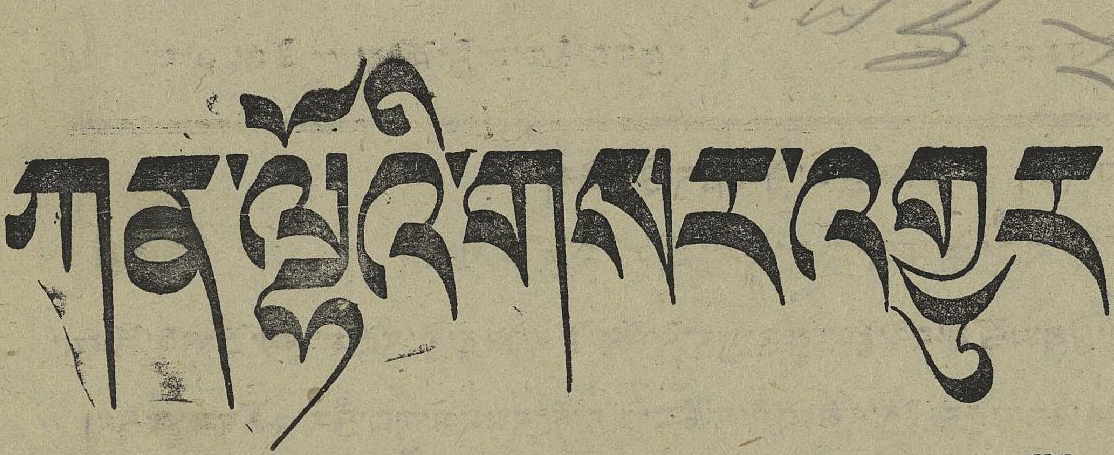ཀན་ལྷོའི་གསར་འགྱུར
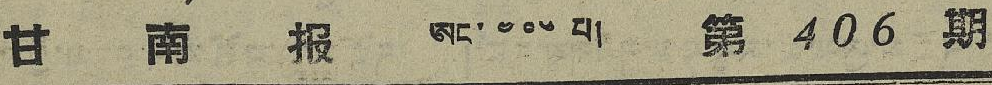甘 南 报 ཨང་ ༤༠༦ པ། 第 406 期
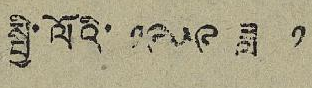སྤྱི་ལོའི་ ༡༩༥༩ ཟླ་ ༡
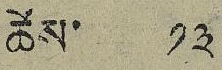ཚེས་ ༡༣
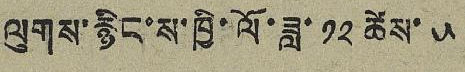ལུགས་རྙིང་ས་ཁྱི་ལོ་ཟླ་ ༡༢ ཚེས་ ༥
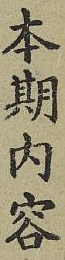本期內容
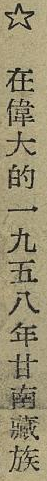☆ 在偉大的一九五八年甘南藏族
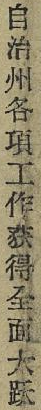自治州各項工作获得全面大跃
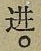进。
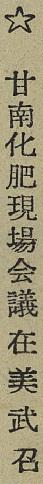☆ 甘南化肥現場会議在美武召
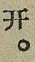开。
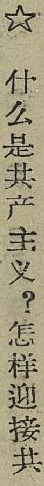☆ 什么是共产主义？怎样迎接共
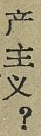产主义？
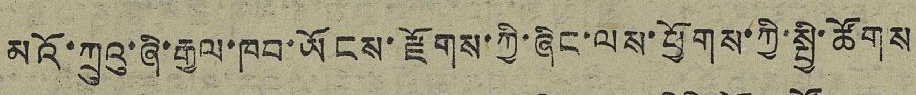མའི་ཀྲུའུ་ཞི་རྒྱལ་ཁབ་ཡོངས་རྫོགས་ཀྱི་ཞིང་ལས་ཕྱོགས་ཀྱི་སྤྱི་ཚོགས
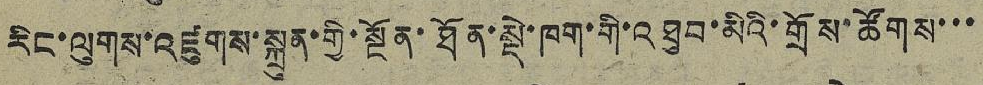རིང་ལུགས་འཛུགས་སྐྲུན་གྱི་སྔོན་ཐོན་སྡེ་ཁག་གི་འཐུབ་མིའི་གྲོས་ཚོགས་་་
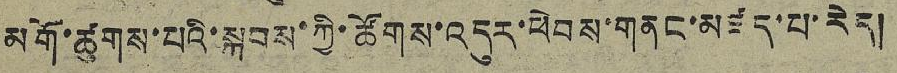མགོ་ཚུགས་པའི་སྐབས་ཀྱི་ཚོགས་འདུར་ཕེབས་གནང་མཛད་པ་རེད།
